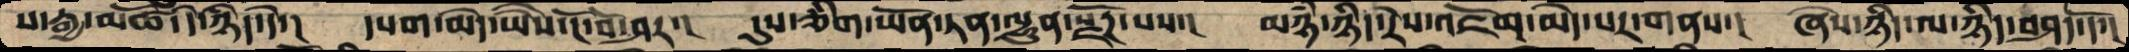པ་རྒྱ་མཚོ་དེ་ཉིད་དེ་།  དཔག་མེད་ཡཻས་ངོ་བོ་ཤར་།  དུས་ཅིག་ཡོན་ཏན་ལྷུན་སྫོཌ་པས་།  མཉཾ་ཉིད་རེས་འཇོག་མེད་པར་གནས་།  ཞེས་ཉིད་ལ་ཉིད་བཤད་དོ་།
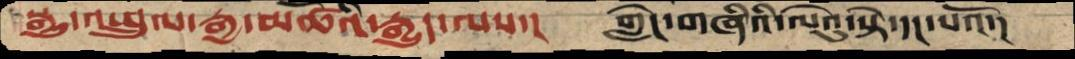སྒྱུ་འཕྲུལ་རྒྱ་མཚོའི་རྒྱུད་ལས་།  གླེང་གཞིའི་ལེའུ་སྟེ་དང་པའོ་།
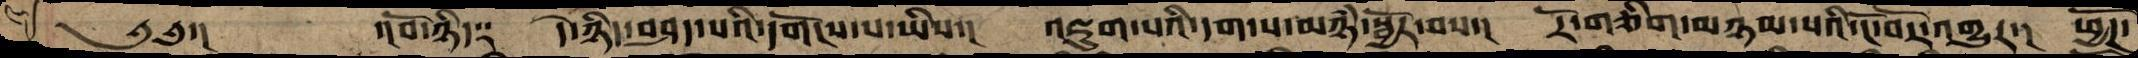༄༅་།   ་།བོ་ཉིད༑ དེ་ཉིད་བཤད་པའི་དགོངས་པ་ཡིས་། འཇུག་པའི་དག་པ་མཉཾ་སྦྱོར་བས་། རོ་གཅིག་མཉམ་པའི་ངོ་བོར་འགྱུར་། ཕྱོཌ་
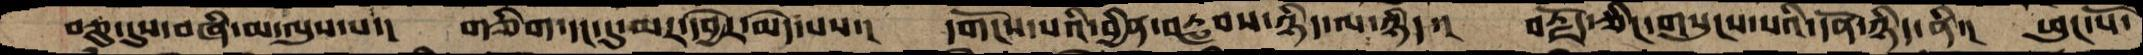བཅུ་དུས་བཞི་མ་ལུས་པ་།  གཅིག་དང་དུ་མར་དབྱེར་མེད་པས་།  དགོངས་པའི་བྱིན་བརླབས་ཉིད་ལ་ཉིད་།  བརྗོད་ཅིང་གསུངས་པའི་དོན་ཉིད་ནི་།  ཕུང་པོ་
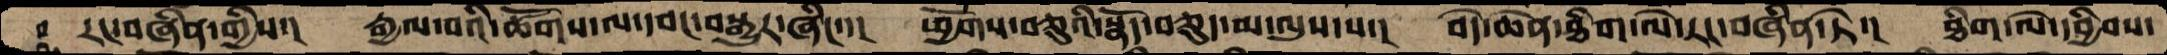རང་བཞིན་གྱིས་། རྒྱལ་བའི་ཚོགས་ལ་དབང་བསྒྱུར་ཞིང་། ཕྱོགས་བཅུའི་སྣོད་བཅུད་མ་ལུས་པ་། བདེ་ཆེན་ཐིག་ལེ་རང་བཞིན་ཏེ་། ཐིག་ལེ་དབྱིབས་
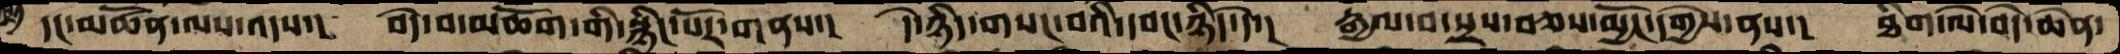དང་མཚོན་ལས་འདས་། བདེ་བ་མཆོག་གི་སྙིང་པོར་གནས་། དེ་ཉིད་གསང་བའི་དབང་ཉིད་དེ་། རྒྱལ་བ་སྲས་བཅས་མྱོང་དགྱེས་ནས་། ཐིག་ལེ་བདེ་ཆེན་
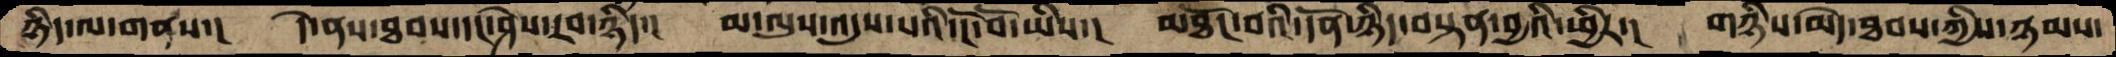ཉིད་ལ་གནས་།  དེ་ནས་ཐབས་དང་ཤེས་རབ་ཉིད་།  མ་ལུས་འདུས་པའི་ངོ་བོ་ཡིས་།   མཐོང་བའི་དོན་ཉིད་བསྟན་བྱའི་ཕྱིར་།  གཉིས་མེད་ཐབས་ཀྱིས་ཉམས་
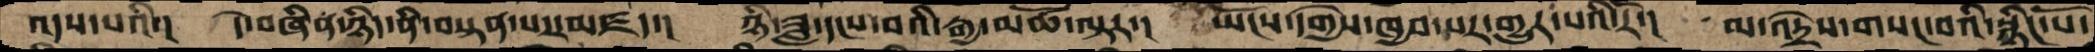འདས་པའི་།  དེ་བཞིན་ཉིད་ནི་བསྟན་པར་མཛད་།  ཉི་ཟླ་དངས་བའི་རྒྱ་མཚོ་ལྟར་།  ཡོངས་དགྱེས་ཁྱབ་པར་གྱུར་པའི་རོ་།  མ་འདྲེས་གསང་བའི་སྙིང་པོ་
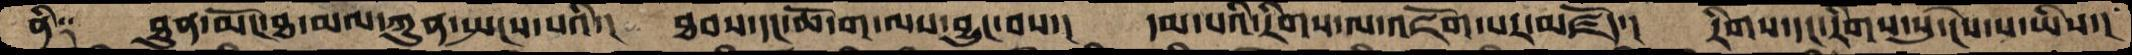ནི༑  ཐུན་མོང་ཐ་མལ་ཀུན་སྤངས་པའི་།  ཐབས་དང་ཆོ་ག་ལས་བྱུང་བས་།  དམ་པའི་རིགས་ལ་འཇོག་པར་མཛོད་།  རིགས་དང་རིགས་སུ་ངེས་པ་ཡིས་།
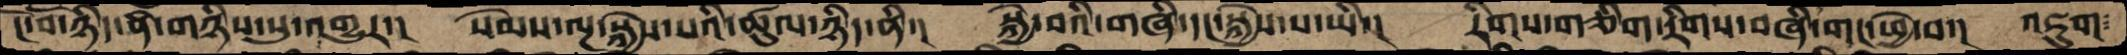ངོ་བོ་ཉིད་ནི་གཉིས་སུ་འགྱུར་།  སེམས་ལྔ་སྐྱེས་པའི་ཚུལ་ཉིད་ནི་།  སྐྱེ་བའི་གཞི་དང་སྐྱེས་པ་ཡི་།   རིགས་གཅིག་རིགས་བཞི་གང་ཕྱེ་བ་།  འཇུག་
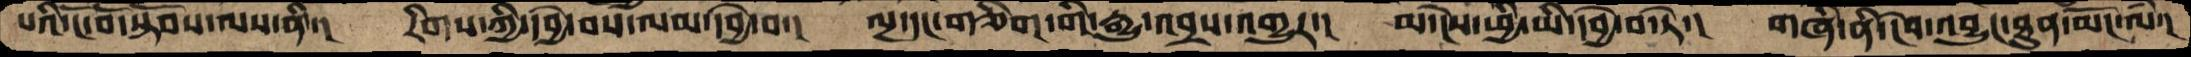པའི་ངོ་བོ་སྟོབས་ལས་ནི་།  རིགས་ཀྱི་དབྱེ་བས་ལམ་དབྱེ་བ་།  ལྔ་དང་གཅིག་གི་རྒྱུ་འབྲས་འགྱུར་།  མ་ངེས་ཕྱི་མི་དབྱེ་བ་ཏེ་།  གཞི་ནི་ངེས་འབྱུང་ཐུན་མོང་ལ་།
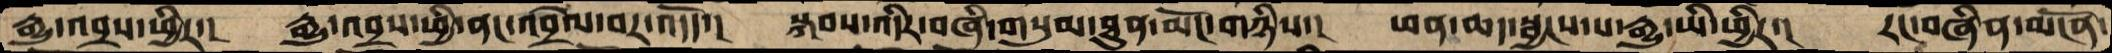རྒྱུ་འབྲས་ཕྱིར་།  རྒྱུ་འབྲས་ཕྱི་ནང་འབྲེལ་བར་འདོད་།  སྐབས་འདིར་བཞི་གསུམ་ཐུན་མོང་གཉིས་།  ཕན་ཆད་སྦྱངས་པ་རྒྱུ་ཡི་ཕྱིར་།  རང་བཞིན་མངོན་
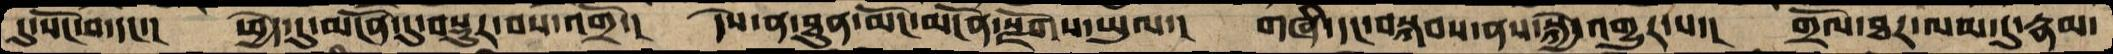དུ་སོང་བ་དང་།  ཕྱེད་དུ་མངོན་དུ་བསྡུར་བས་འགྲོ་།  དེས་ན་ཐུན་མོང་མངོན་སྫོགས་ཡུལ་།  གཞི་དང་བསྐབས་ནས་སྐྱེ་འགྱུར་པ་།  གྲོལ་ཐར་ལམ་དུ་རྣམ་
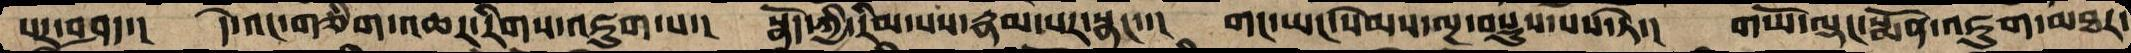པར་བཤད་།  དེ་འང་གཅིག་འཆར་རིགས་འཇུག་པ་།  སྣོད་ཀྱི་རིམ་པས་རྣམ་པར་སྣང་་།  གང་ཡང་སེམས་ལྔ་བསྡུས་པས་ཏེ་།  གཡོ་ལྡང་སྨོན་འཇུག་མཐར་
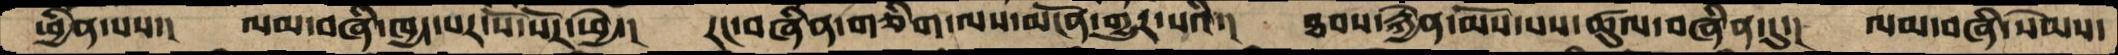ཕྱིན་པས་།  ལམ་བཞི་ཁྱད་པར་སོ་སོར་ཕྱེ་།  རང་བཞིན་གཅིག་ལས་མངོན་གྱུར་པའི་།  ཐབས་རྐྱེན་མོས་པས་ཚུལ་བཞིན་དུ་།  ལམ་བཞི་སེམས་
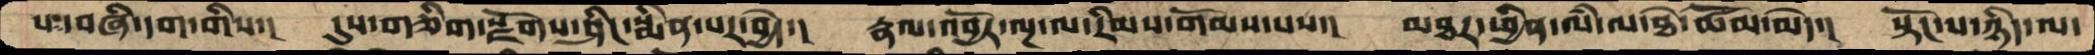པ་བཞི་དག་གིས་།  དུས་གཅིག་སྫོགས་ཤིང་སྨིན་པར་བྱེད་།  རྣལ་འབྱོར་ལྔ་ལ་རིམས་གོམས་པས་།  མཐར་ཕྱིན་ལཾ་ལ་ཐེ་ཚོམ་མེད་།  སྟོང་པ་ཉིད་ལ་
